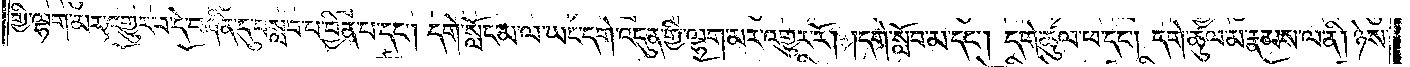གྱི་ལྷག་མར་འགྱུར་བ་དེ་བཞིན་དུ་བསླབ་པ་བྱིན་པ་དང༌། དགེ་སློང་མ་ལ་ཡང་དགེ་འདུན་གྱི་ལྷག་མར་འགྱུར་རོ། །དགེ་སློང་མ་དང༌། དགེ་ཚུལ་ཕ་དང༌། དགེ་ཚུལ་མ་རྣམས་ལ་ནི། ཉེས་
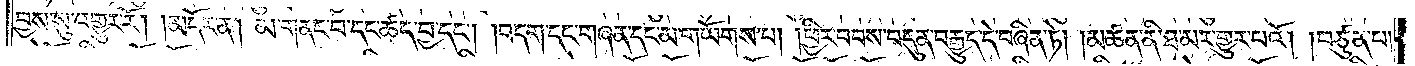བྱས་སུ་འགྱུར་རོ།    །མདོར་ན། མ་གནང་བ་དང་ཚད་བྱ་དང༌། །བདག་དང་གཞན་དང་མ་གཡོགས་པ། །ཕྱིར་བབས་བདུན་བརྒྱུད་དེ་བཞིན་ཏེ། །མཚན་ནི་ཐ་མར་གྱུར་པའོ། །བཙུན་པ་
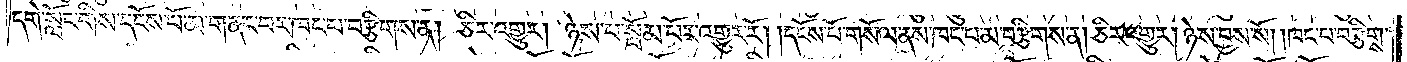དགེ་སློང་གིས་དངོས་པོ་མ་གནང་བར་ཁང་བ་བརྩིགས་ན། ཅིར་འགྱུར། ཉེས་པ་སྦོམ་པོར་འགྱུར་རོ། །དངོས་པོ་གསོལ་ནས་ཁང་པ་མ་བརྩིགས་ན། ཅིར་འགྱུར། ཉེས་བྱས་སོ། །ཁང་པ་བརྩིགས་
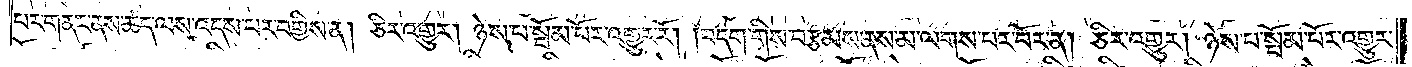པར་གནང་ནས་ཚད་ལས་འདས་པར་བགྱིས་ན། ཅིར་འགྱུར། ཉེས་པ་སྦོམ་པོར་འགྱུར་རོ། །བདག་གིས་བརྩམས་ནས་མ་ལགས་པར་བོར་ན། ཅིར་འགྱུར། ཉེས་པ་སྦོམ་པོར་འགྱུར་
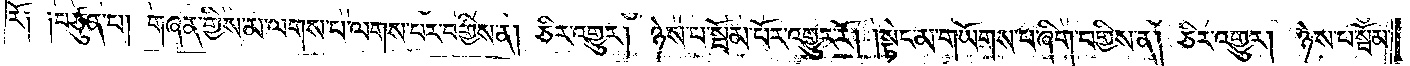རོ༑ ༑བཙུན་པ། གཞན་གྱིས་མ་ལགས་པ་ལགས་པར་བགྱིས་ན། ཅིར་འགྱུར། ཉེས་པ་སྦོམ་པོར་འགྱུར་རོ། །སྟེང་མ་གཡོགས་པ་ཞིག་བགྱིས་ན། ཅིར་འགྱུར། ཉེས་པ་སྦོམ་
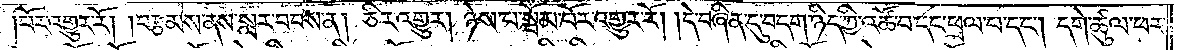པོར་འགྱུར་རོ། །བརྩམས་ནས་སླར་བབས་ན། ཅིར་འགྱུར། ཉེས་པ་སྦོམ་པོར་འགྱུར་རོ། །དེ་བཞིན་དུ་བདག་ཉིད་ཀྱི་འཚོ་བ་དང་ཕྲལ་བ་དང༌། དགེ་ཚུལ་ཕར་
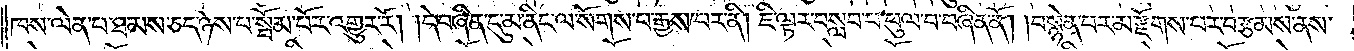ཁས་ལེན་པ་ཐམས་ཅད་ཉེས་པ་སྦོམ་པོར་འགྱུར་རོ། །དེ་བཞིན་དུ་མ་ནིང་ལ་སོགས་པ་རྒྱས་པར་ནི། ཇི་ལྟར་བསླབ་པ་ཕུལ་བ་བཞིན་ནོ། །བསྙེན་པར་མ་རྫོགས་པར་བརྩམས་ནས་
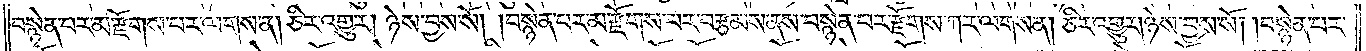བསྙེན་པར་མ་རྫོགས་པར་ལགས་ན། ཅིར་འགྱུར། ཉེས་བྱས་སོ། །བསྙེན་པར་མ་རྫོགས་པར་བརྩམས་ནས་བསྙེན་པར་རྫོགས་ཀར་ལགས་ན། ཅིར་འགྱུར། ཉེས་བྱས་སོ། །བསྙེན་པར་
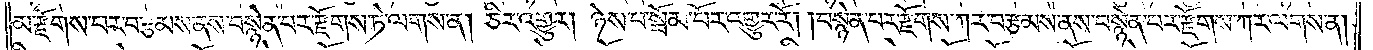མ་རྫོགས་པར་བརྩམས་ནས་བསྙེན་པར་རྫོགས་ཏེ་ལགས་ན། ཅིར་འགྱུར། ཉེས་པ་སྦོམ་པོར་འགྱུར་རོ། །བསྙེན་པར་རྫོགས་ཀར་བརྩམས་ནས་བསྙེན་པར་རྫོགས་ཀར་ལགས་ན།
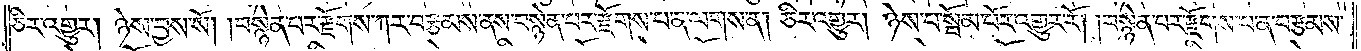ཅིར་འགྱུར། ཉེས་བྱས་སོ། །བསྙེན་པར་རྫོགས་ཀར་བརྩམས་ནས་བསྙེན་པར་རྫོགས་པ་ན་ལགས་ན། ཅིར་འགྱུར། ཉེས་པ་སྦོམ་པོར་འགྱུར་རོ། །བསྙེན་པར་རྫོགས་པ་ན་བརྩམས་
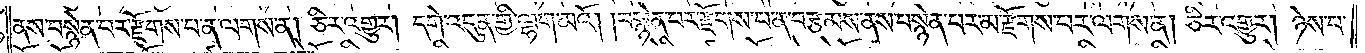ནས་བསྙེན་པར་རྫོགས་པ་ན་ལགས་ན། ཅིར་འགྱུར། དགེ་འདུན་གྱི་ལྷག་མའོ། །བསྙེན་པར་རྫོགས་པ་ན་བརྩམས་ནས་བསྙེན་པར་མ་རྫོགས་པར་ལགས་ན། ཅིར་འགྱུར། ཉེས་པ་
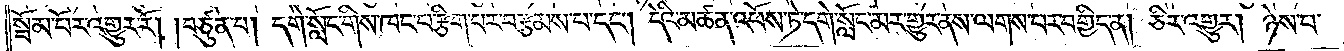སྦོམ་པོར་འགྱུར་རོ། །བཙུན་པ། དགེ་སློང་གིས་ཁང་པ་རྩིག་པར་བརྩམས་པ་དང༌། དེའི་མཚན་འཕོས་ཏེ་དགེ་སློང་མར་གྱུར་ནས་ལགས་པར་བགྱིད་ན། ཅིར་འགྱུར། ཉེས་པ་
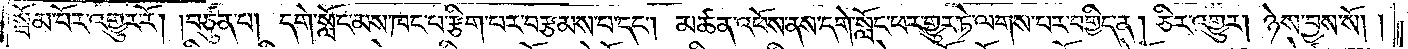སྦོམ་པོར་འགྱུར་རོ། །བཙུན་པ། དགེ་སློང་མས་ཁང་པ་རྩིག་པར་བརྩམས་པ་དང༌། མཚན་འཕོས་ནས་དགེ་སློང་ཕར་གྱུར་ཏེ་ལགས་པར་བགྱིད་ན། ཅིར་འགྱུར། ཉེས་བྱས་སོ། །
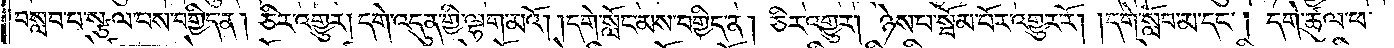བསླབ་པ་སྩལ་བས་བགྱིད་ན། ཅིར་འགྱུར། དགེ་འདུན་གྱི་ལྷག་མའོ། །དགེ་སློང་མས་བགྱིད་ན། ཅིར་འགྱུར། ཉེས་པ་སྦོམ་པོར་འགྱུར་རོ། །དགེ་སློབ་མ་དང༌། དགེ་ཚུལ་ཕ་
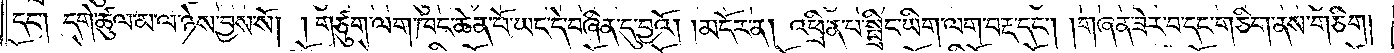དང༌། དགེ་ཚུལ་མ་ལ་ཉེས་བྱས་སོ། །གཙུག་ལག་ཁང་ཆེན་པོ་ཡང་དེ་བཞིན་དུ་བྱའོ།    །མདོར་ན། འཕྲིན་པ་སྤྲིང་ཡིག་ལག་བརྡ་དང༌། །གཞན་ཟེར་བ་དང་གཅིག་ནས་གཅིག །
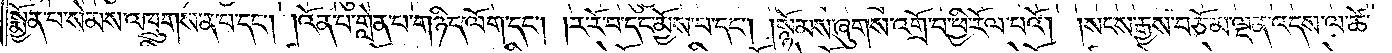སྨྱོན་པ་སེམས་འཁྲུགས་ན་བ་དང༌། །འོན་པ་གླེན་པ་གཉིད་ལོག་དང༌། །ར་རོ་བ་དང་མྱོས་པ་དང༌། །སྙོམས་ཞུགས་འགྲོ་བ་ཕྱི་རོལ་པའོ། །སངས་རྒྱས་བཅོམ་ལྡན་འདས་ལ་ཚེ་
